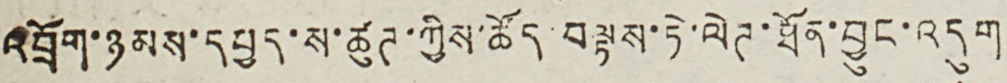འབྲོག་ཉམས་དཔྱད་ས་ཚུཊ་ཀྱིས་ཚོད་བལྟས་ཏེ་ལེཊ་ཐོན་བྱུང་འདུག
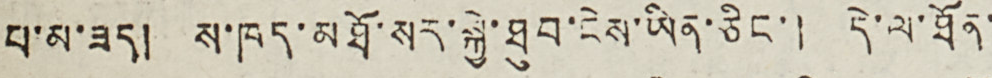པ་མ་ཟད། ས་ཁད་མཐོ་སར་སྐྱེ་ཐུབ་ངེས་ཡིན་ཅིང་། དེ་ལ་ཐོན་
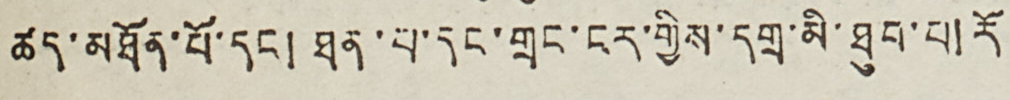ཚད་མཐོན་པོ་དང ། ཐན་པ་དང་གྲང་ངར་གྱིས་དགྲ་མི་ཐུབ་པ། རོ
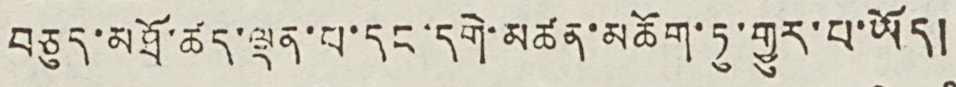བཅུད་མཐོ་ཚད་ལྡན་པ་དང་དགེ་མཚན་མཆོག་ཏུ་གྱུར་པ་ཡོད།
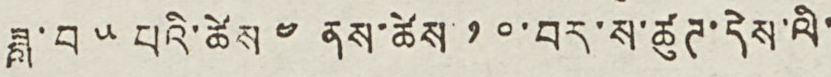ཟླ་བ ༥ པའི་ཚེས ༤ ནས་ཚེས་ ༡༠་བར་ས་ཚུཊ་དེས་ལི་
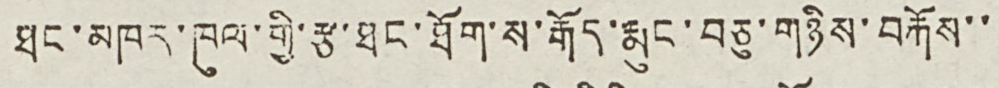ཐང་མཁར་ཁུལ་གྱི་རྩ་ཐང་ཐོག་ས་རྒོད་རྨུང་བཅུ་གཉིས་བརྐོས་་
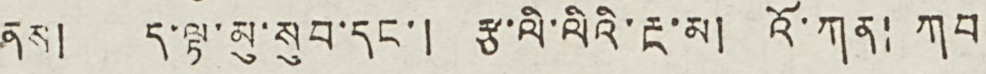ནས། ད་ལྟ་མུ་སུབ་དང་། རྩ་ལི་ལིའི་རྔ་མ། འོ་ཀན། ཀབ
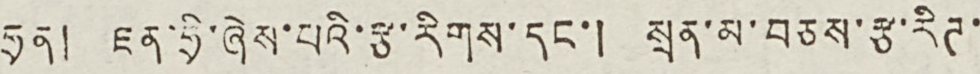ཧྲན། ཇན་ཧྲི་ཞེས་པའི་རྩ་རིགས་དང་། སྲན་མ་བཅས་རྩ་རིཊ་
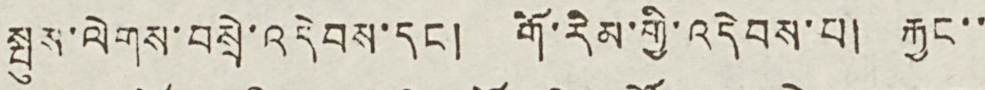སྤུས་ལེགས་བསྲེ་འདེབས་དང ། གོ་རིམ་གྱི་འདེབས་པ། རྐྱང་་
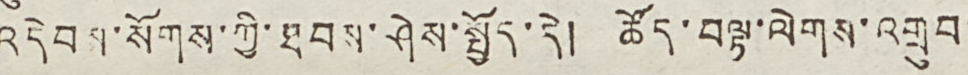འདེབས་སོགས་ཀྱི་ཐབས་ཤེས་སྤྱོད་དེ། ཚོད་བལྟ་ལེགས་འགྲུབ་
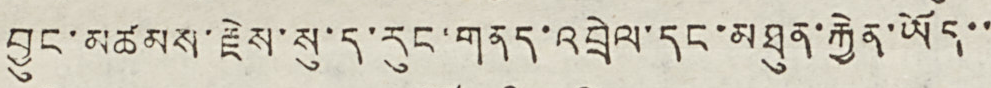བྱུང་མཚམས་རྗེས་སུ་ད་རུང་གནད་འབྲེལ་དང་མཐུན་རྐྱེན་ཡོད་་
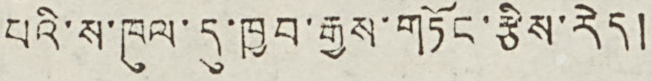པའི་ས་ཁུལ་དུ་ཁྱབ་རྒྱས་གཏོང་རྩིས་རེད།
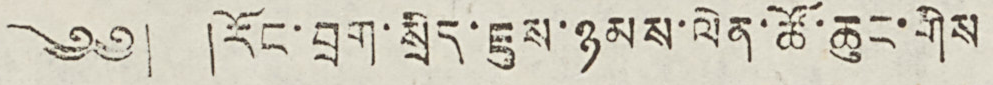༄༅། །རོང་བྲག་སྲིད་ཇུས་ཉམས་ལེན་ཚོ་ཆུང་གིས
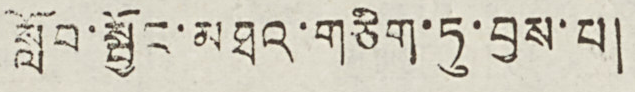སློབ་སྦྱོང་མཐའ་གཅིག་ཏུ་བྱས་པ།
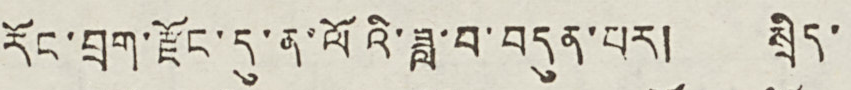རོང་བྲག་རྫོང་དུ་ན་ལོའི་ཟླ་བ་བདུན་པར། སྲིད་
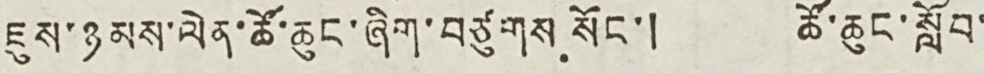ཇུས་ཉམས་ལེན་ཚོ་ཆུང་ཞིག་བཙུགས སོང་། ཚོ་ཆུང་སློབ་
